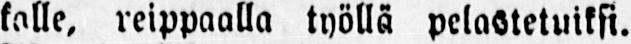kalle, reippaalla työllä pelastetuiksi.
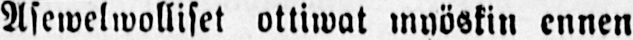Asewelwolliset ottiwat myöskin ennen
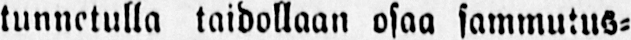tunnetulla taidollaan osaa sammutus-
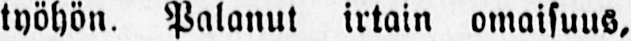työhön. Palanut irtain omaisuus,
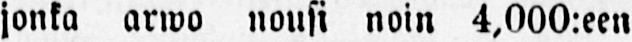jonka arwo nousi noin 4,000:een
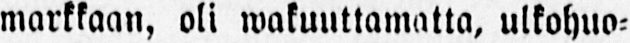markkaan, oli wakuuttamatta, ulkohuo-
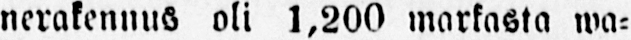nerakennus oli 1,200 markasta wa-
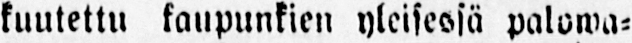kuutettu kaupunkien yleisessä palowa-
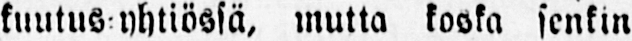kuutus yhtiössä, mutta koska senkin
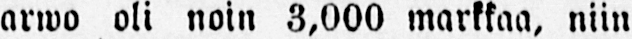arwo oli noin 3,000 markkaa, niin
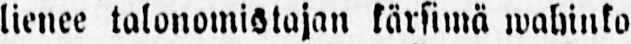lienee talonomistajan kärsimä wahinko
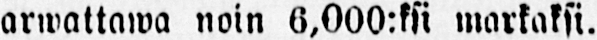arwattawa noin 6,000:ksi markaksi.
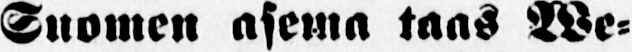Suomen asema taas We-
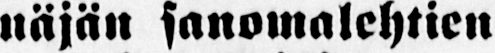näjän sanomalehtien
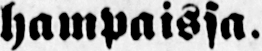hampaissa.
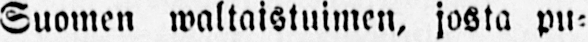Suomen waltaistuimen, josta pu-
